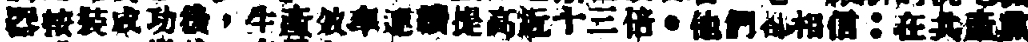器按裝成功後，生產效率連續提高近十三倍。他們都相信：在共產黨
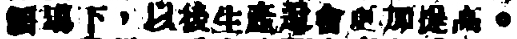領導下，以後生產還會更加提高。
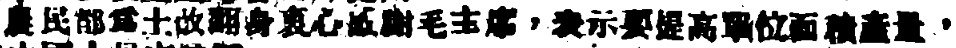農民都爲土改翻身衷心感謝毛主席，表示要提高單位面積產量，
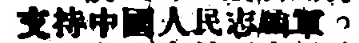支持中國人民志願軍。
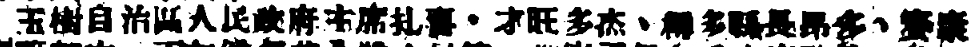玉樹自治區人民政府主席扎喜・才旺多杰、稱多縣長昂多、賽康
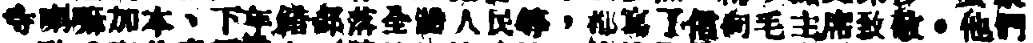寺喇嘛加本、下年錯部落全體人民等，都寫了信向毛主席致敬。他們
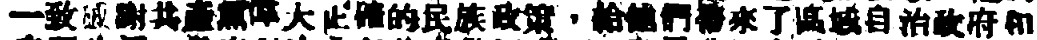一致感謝共產黨偉大正確的民族政策，給他們帶來了區域自治政府和
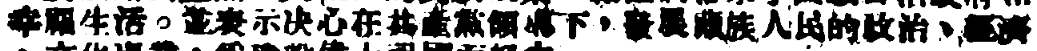幸福生活。並表示決心在共產黨領導下，發展藏族人民的政治、經濟
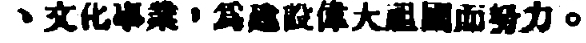、文化事業，爲建設偉大祖國而努力。
